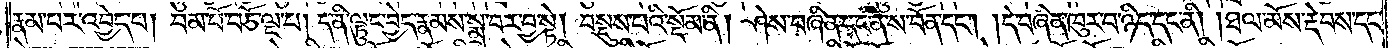རྣམ་པར་འབྱེད་པ། བམ་པོ་བཅོ་ལྔ་པ། ད་ནི་ལྟུང་བྱེད་རྣམས་སྨྲ་བར་བྱ་སྟེ། བསྡུས་པའི་སྡོམ་ནི། ཤེས་བཞིན་དང་ནི་ས་བོན་དང༌། །དེ་བཞིན་ཁུར་བ་ཉིད་དང་ནི། །ཐལ་མོས་རྡེབས་དང་
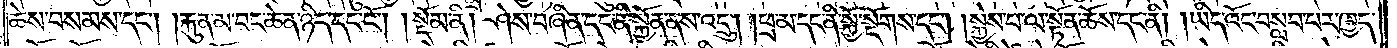ཆེས་བསམས་དང༌། །རྐུན་མ་བང་ཆེན་ཉིད་དང་ངོ༌།    །སྡོམ་ནི། ཤེས་བཞིན་དང་ནི་སྐྱོན་ནས་འདྲུ། །ཕྲ་མ་དང་ནི་སྐྱོ་སྔོགས་དང༌། །སྐྱེས་པ་ལ་སྟོན་ཆོས་དང་ནི། །ཡིད་འོང་བསླབ་པར་ཁྱད་
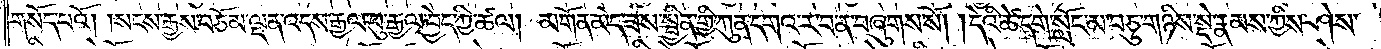གསོད་པའོ། །སངས་རྒྱས་བཅོམ་ལྡན་འདས་རྒྱལ་བུ་རྒྱལ་བྱེད་ཀྱི་ཚལ། མགོན་མེད་ཟས་སྦྱིན་གྱི་ཀུན་དགའ་ར་བ་ན་བཞུགས་སོ། །དེའི་ཚེ་དགེ་སློང་མ་བཅུ་གཉིས་སྡེ་རྣམས་ཀྱིས་ཤེས་
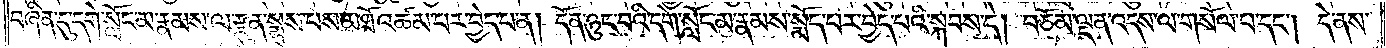བཞིན་དུ་དགེ་སློང་མ་རྣམས་ལ་རྫུན་སྨྲས་པས་མཐོ་འཚམ་པར་བྱེད་པ་ན། དོན་ཉུང་བའི་དགེ་སློང་མ་རྣམས་སྨོད་པར་བྱེད་པའི་སྐབས་ཏེ། བཅོམ་ལྡན་འདས་ལ་གསོལ་པ་དང༌། དེ་ནས་
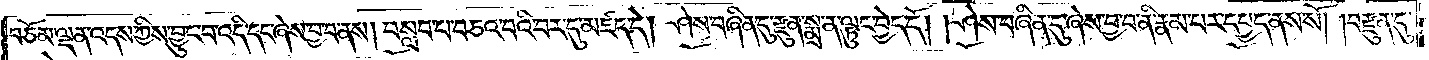བཅོམ་ལྡན་འདས་ཀྱིས་བྱུང་བ་འདི་དང་ཞེས་བྱ་བ་ནས། བསླབ་པ་བཅའ་བའི་བར་དུ་མཛད་དེ། ཤེས་བཞིན་དུ་རྫུན་སྨྲ་ན་ལྟུང་བྱེད་དོ། །ཤེས་བཞིན་དུ་ཞེས་བྱ་བ་ནི་རྣམ་པར་དཔྱད་ནས་སོ། །བརྫུན་དུ་
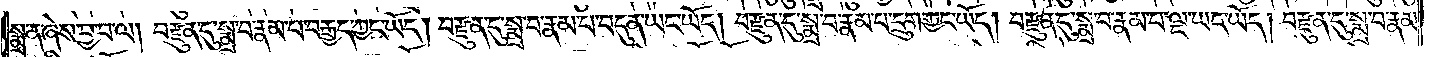སྨྲ་ན་ཞེས་བྱ་བ་ལ། བརྫུན་དུ་སྨྲ་བ་རྣམ་པ་བརྒྱད་ཀྱང་ཡོད། བརྫུན་དུ་སྨྲ་བ་རྣམ་པ་བདུན་ཡང་ཡོད། བརྫུན་དུ་སྨྲ་བ་རྣམ་པ་དྲུག་ཀྱང་ཡོད། བརྫུན་དུ་སྨྲ་བ་རྣམ་པ་ལྔ་ཡང་ཡོད། བརྫུན་དུ་སྨྲ་བ་རྣམ་
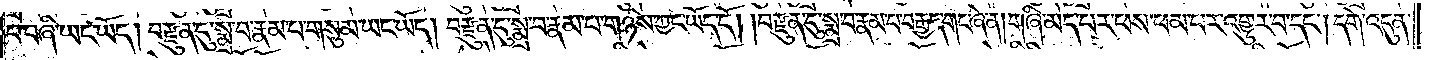པ་བཞི་ཡང་ཡོད། བརྫུན་དུ་སྨྲ་བ་རྣམ་པ་གསུམ་ཡང་ཡོད། བརྫུན་དུ་སྨྲ་བ་རྣམ་པ་གཉིས་ཀྱང་ཡོད་དོ། །བརྫུན་དུ་སྨྲ་བ་རྣམ་པ་བརྒྱད་གང་ཞེན། གཞི་མེད་པར་ཕས་ཕམ་པར་འགྱུར་བ་དང༌། དགེ་འདུན་
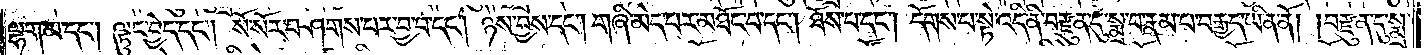ལྷག་མ་དང༌། ལྟུང་བྱེད་དང༌། སོ་སོར་བཤགས་པར་བྱ་བ་དང༌། ཉེས་བྱས་དང༌། གཞི་མེད་པར་མཐོང་བ་དང༌། ཐོས་པ་དང༌། དོགས་པ་སྟེ་འདི་ནི་བརྫུན་དུ་སྨྲ་བ་རྣམ་པ་བརྒྱད་ཡིན་ནོ། །བརྫུན་དུ་སྨྲ་
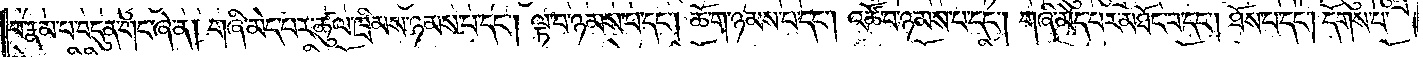བ་རྣམ་པ་བདུན་གང་ཞེ་ན། གཞི་མེད་པར་ཚུལ་ཁྲིམས་ཉམས་པ་དང༌། ལྟ་བ་ཉམས་པ་དང༌། ཆོ་ག་ཉམས་པ་དང༌། འཚོ་བ་ཉམས་པ་དང༌། གཞི་མེད་པར་མཐོང་བ་དང༌། ཐོས་པ་དང༌། དོགས་པ་
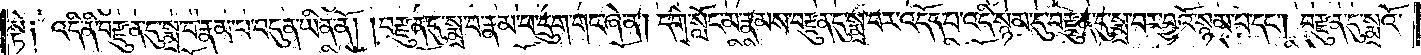སྟེ༑ འདི་ནི་བརྫུན་དུ་སྨྲ་བ་རྣམ་པ་བདུན་ཡིན་ནོ། །བརྫུན་དུ་སྨྲ་བ་རྣམ་པ་དྲུག་གང་ཞེ་ན། དགེ་སློང་མ་རྣམས་བརྫུན་དུ་སྨྲ་བར་འདོད་པ་འདི་སྙམ་དུ་བརྫུན་དུ་སྨྲ་བར་བྱའོ་སྙམ་པ་དང༌། བརྫུན་དུ་སྨྲའོ་
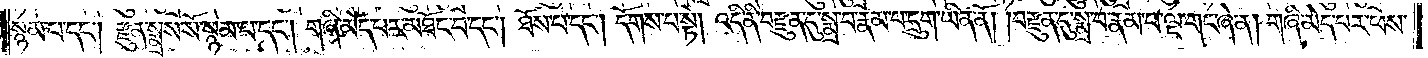སྙམ་པ་དང༌། རྫུན་སྨྲས་སོ་སྙམ་པ་དང༌། གཞི་མེད་པར་མཐོང་བ་དང༌། ཐོས་པ་དང༌། དོགས་པ་སྟེ། འདི་ནི་བརྫུན་དུ་སྨྲ་བ་རྣམ་པ་དྲུག་ཡིན་ནོ། །བརྫུན་དུ་སྨྲ་བ་རྣམ་པ་ལྔ་གང་ཞེ་ན། གཞི་མེད་པར་ཕས་
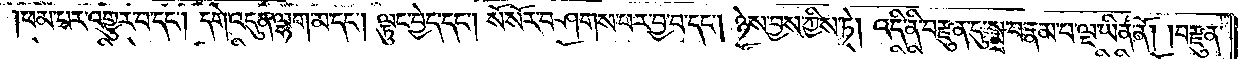ཕམ་པར་འགྱུར་པ་དང༌། དགེ་འདུན་ལྷག་མ་དང༌། ལྟུང་བྱེད་དང༌། སོ་སོར་བཤགས་པར་བྱ་བ་དང༌། ཉེས་བྱས་ཀྱིས་ཏེ། འདི་ནི་བརྫུན་དུ་སྨྲ་བ་རྣམ་པ་ལྔ་ཡིན་ནོ། །བརྫུན་
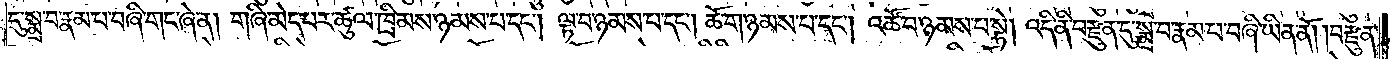དུ་སྨྲ་བ་རྣམ་པ་བཞི་གང་ཞེ་ན། གཞི་མེད་པར་ཚུལ་ཁྲིམས་ཉམས་པ་དང༌། ལྟ་བ་ཉམས་པ་དང༌། ཆོ་ག་ཉམས་པ་དང༌། འཚོ་བ་ཉམས་པ་སྟེ། འདི་ནི་བརྫུན་དུ་སྨྲ་བ་རྣམ་པ་བཞི་ཡིན་ནོ། །བརྫུན་
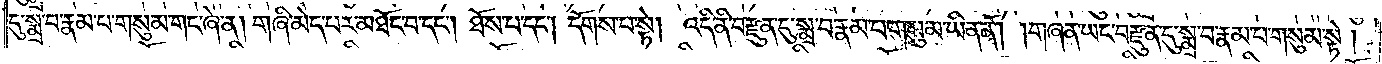དུ་སྨྲ་བ་རྣམ་པ་གསུམ་གང་ཞེ་ན། གཞི་མེད་པར་མཐོང་བ་དང༌། ཐོས་པ་དང༌། དོགས་པ་སྟེ། འདི་ནི་བརྫུན་དུ་སྨྲ་བ་རྣམ་པ་གསུམ་ཡིན་ནོ། །གཞན་ཡང་བརྫུན་དུ་སྨྲ་བ་རྣམ་པ་གསུམ་སྟེ།
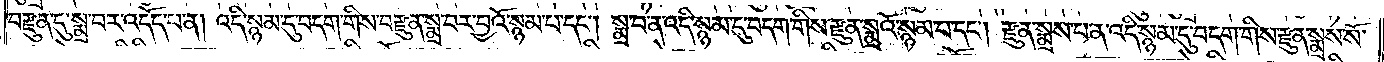བརྫུན་དུ་སྨྲ་བར་འདོད་པ་ན། འདི་སྙམ་དུ་བདག་གིས་བརྫུན་སྨྲ་བར་བྱའོ་སྙམ་པ་དང༌། སྨྲ་བ་ན་འདི་སྙམ་དུ་བདག་གིས་རྫུན་སྨྲའོ་སྙམ་པ་དང༌། རྫུན་སྨྲས་པ་ན་འདི་སྙམ་དུ་བདག་གིས་རྫུན་སྨྲས་སོ་
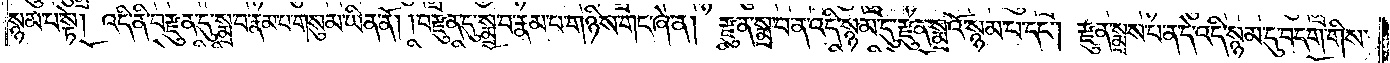སྙམ་པ་སྟེ། འདི་ནི་བརྫུན་དུ་སྨྲ་བ་རྣམ་པ་གསུམ་ཡིན་ནོ། །བརྫུན་དུ་སྨྲ་བ་རྣམ་པ་གཉིས་གང་ཞེ་ན། རྫུན་སྨྲ་བ་ན་འདི་སྙམ་དུ་རྫུན་སྨྲའོ་སྙམ་པ་དང༌། རྫུན་སྨྲས་པ་ན་དེ་འདི་སྙམ་དུ་བདག་གིས་
